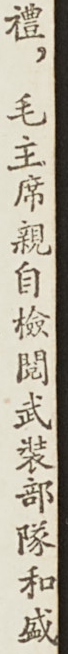禮，毛主席親自檢閱武裝部隊和盛
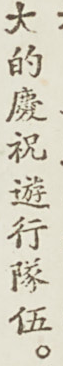大的慶祝遊行隊伍。
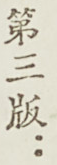第三版：
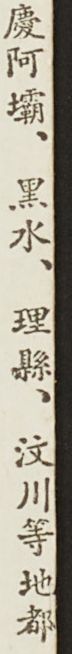慶阿壩、黑水、理縣、汶川等地都
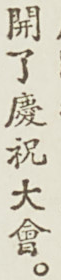開了慶祝大會。
